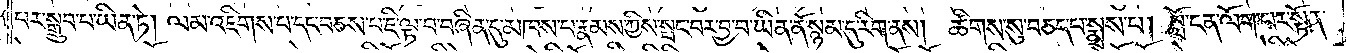པར་སྒྲུབ་པ་ཡིན་ཏེ། ལམ་འཇིགས་པ་དང་བཅས་པ་ཇི་ལྟ་བ་བཞིན་དུ་མཁས་པ་རྣམས་ཀྱིས་སྤང་བར་བྱ་བ་ཡིན་ནོ་སྙམ་དུ་རིག་ནས། ཚིགས་སུ་བཅད་པ་སྨྲས་པ། བློ་ངན་ལོག་པར་སྟོན་
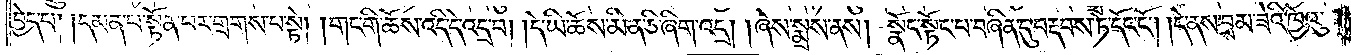བྱེད་པ། །དམན་པ་སྟོན་པར་གྲགས་པ་སྟེ། །གང་གི་ཆོས་འདི་དེ་འདྲ་བ། །དེ་ཡི་ཆོས་མིན་ཅི་ཞིག་འདྲ། །ཞེས་སྨྲས་ནས། སྣོད་སྟོང་བ་བཞིན་དུ་བརྡབས་ཏེ་དོང་ངོ༌། །དེ་ནས་བྲམ་ཟེའི་ཁྱེའུ་
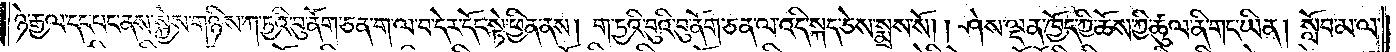ཉེ་རྒྱལ་དང་པང་ནས་སྐྱེས་གཉིས་ཀ་ཏྱའི་བུ་ནོག་ཅན་ག་ལ་བ་དེར་དོང་སྟེ་ཕྱིན་ནས། ག་ཏྱའི་བུའི་བུ་ནོག་ཅན་ལ་འདི་སྐད་ཅེས་སྨྲས་སོ། །ཤེས་ལྡན་ཁྱོད་ཀྱི་ཆོས་ཀྱི་ཚུལ་ནི་གང་ཡིན། སློབ་མ་ལ་
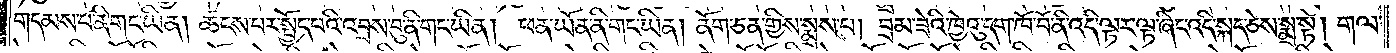གདམས་པ་ནི་གང་ཡིན། ཚངས་པར་སྤྱོད་པའི་འབྲས་བུ་ནི་གང་ཡིན། ཕན་ཡོན་ནི་གང་ཡིན། ནོག་ཅན་གྱིས་སྨྲས་པ། བྲམ་ཟེའི་ཁྱེའུ་དག་ཁོ་བོ་ནི་འདི་ལྟར་ལྟ་ཞིང་འདི་སྐད་ཅེས་སྨྲ་སྟེ། གལ་
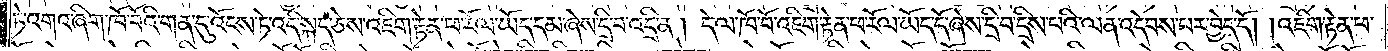ཏེ་འགའ་ཞིག་ཁོ་བོའི་གན་དུ་འོངས་ཏེ་འདི་སྐད་ཅེས་འཇིག་རྟེན་ཕ་རོལ་ཡོད་དམ་ཞེས་དྲི་བ་འདྲི་ན། དེ་ལ་ཁོ་བོ་འཇིག་རྟེན་ཕ་རོལ་ཡོད་དོ་ཞེས་དྲི་བ་དྲིས་པའི་ལན་འདེབས་པར་བྱེད་དོ། །འཇིག་རྟེན་ཕ་
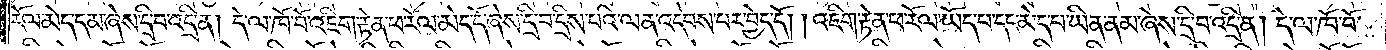རོལ་མེད་དམ་ཞེས་དྲི་བ་འདྲི་ན། དེ་ལ་ཁོ་བོ་འཇིག་རྟེན་ཕ་རོལ་མེད་དོ་ཞེས་དྲི་བ་དྲིས་པའི་ལན་འདེབས་པར་བྱེད་དོ། །འཇིག་རྟེན་ཕ་རོལ་ཡོད་པ་དང་མེད་པ་ཡིན་ནམ་ཞེས་དྲི་བ་འདྲི་ན། དེ་ལ་ཁོ་བོ་
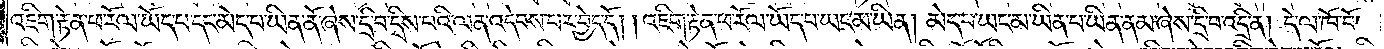འཇིག་རྟེན་ཕ་རོལ་ཡོད་པ་དང་མེད་པ་ཡིན་ནོ་ཞེས་དྲི་བ་དྲིས་པའི་ལན་འདེབས་པར་བྱེད་དོ། །འཇིག་རྟེན་ཕ་རོལ་ཡོད་པ་ཡང་མ་ཡིན། མེད་པ་ཡང་མ་ཡིན་པ་ཡིན་ནམ་ཞེས་དྲི་བ་འདྲི་ན། དེ་ལ་ཁོ་བོ་
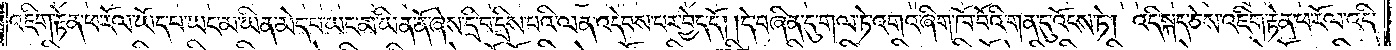འཇིག་རྟེན་ཕ་རོལ་ཡོད་པ་ཡང་མ་ཡིན་མེད་པ་ཡང་མ་ཡིན་ནོ་ཞེས་དྲི་བ་དྲིས་པའི་ལན་འདེབས་པར་བྱེད་དོ། །དེ་བཞིན་དུ་གལ་ཏེ་འགའ་ཞིག་ཁོ་བོའི་གན་དུ་འོངས་ཏེ། འདི་སྐད་ཅེས་འཇིག་རྟེན་ཕ་རོལ་འདི་
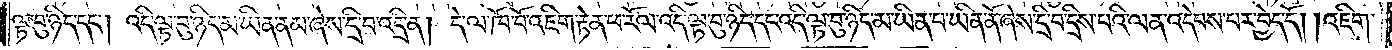ལྟ་བུ་ཉིད་དང༌། འདི་ལྟ་བུ་ཉིད་མ་ཡིན་ནམ་ཞེས་དྲི་བ་འདྲི་ན། དེ་ལ་ཁོ་བོ་འཇིག་རྟེན་ཕ་རོལ་འདི་ལྟ་བུ་ཉིད་དང་འདི་ལྟ་བུ་ཉིད་མ་ཡིན་པ་ཡིན་ནོ་ཞེས་དྲི་བ་དྲིས་པའི་ལན་འདེབས་པར་བྱེད་དོ། །འཇིག་
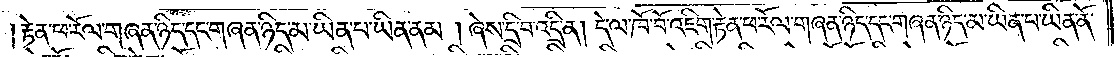རྟེན་ཕ་རོལ་གཞན་ཉིད་དང་གཞན་ཉིད་མ་ཡིན་པ་ཡིན་ནམ་། ཞེས་དྲི་བ་འདྲི་ན། དེ་ལ་ཁོ་བོ་འཇིག་རྟེན་ཕ་རོལ་གཞན་ཉིད་དང་གཞན་ཉིད་མ་ཡིན་པ་ཡིན་ནོ་
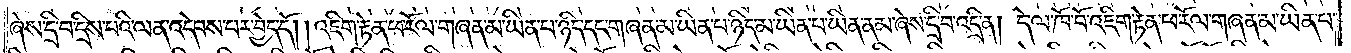ཞེས་དྲི་བ་དྲིས་པའི་ལན་འདེབས་པར་བྱེད་དོ། །འཇིག་རྟེན་ཕ་རོལ་གཞན་མ་ཡིན་པ་ཉིད་དང་གཞན་མ་ཡིན་པ་ཉིད་མ་ཡིན་པ་ཡིན་ནམ་ཞེས་དྲི་བ་འདྲི་ན། དེ་ལ་ཁོ་བོ་འཇིག་རྟེན་ཕ་རོལ་གཞན་མ་ཡིན་པ་
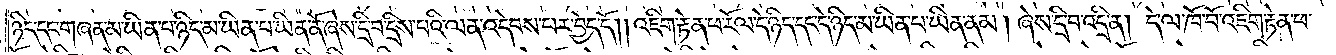ཉིད་དང་གཞན་མ་ཡིན་པ་ཉིད་མ་ཡིན་པ་ཡིན་ནོ་ཞེས་དྲི་བ་དྲིས་པའི་ལན་འདེབས་པར་བྱེད་དོ། །འཇིག་རྟེན་ཕ་རོལ་དེ་ཉིད་དང་དེ་ཉིད་མ་ཡིན་པ་ཡིན་ནམ། ཞེས་དྲི་བ་འདྲི་ན། དེ་ལ་ཁོ་བོ་འཇིག་རྟེན་ཕ་
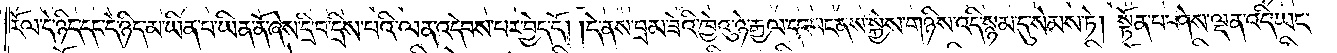རོལ་དེ་ཉིད་དང་དེ་ཉིད་མ་ཡིན་པ་ཡིན་ནོ་ཞེས་དྲི་བ་དྲིས་པའི་ལན་འདེབས་པར་བྱེད་དོ། །དེ་ནས་བྲམ་ཟེའི་ཁྱེའུ་ཉེ་རྒྱལ་དང་པང་ནས་སྐྱེས་གཉིས་འདི་སྙམ་དུ་སེམས་ཏེ། སྟོན་པ་ཤེས་ལྡན་འདི་ཡང་
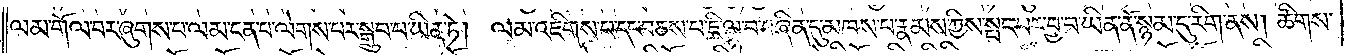ལམ་གོལ་བར་ཞུགས་པ་ལམ་ངན་པ་ལེགས་པར་སྒྲུབ་པ་ཡིན་ཏེ། ལམ་འཇིགས་པ་དང་བཅས་པ་ཇི་ལྟ་བ་བཞིན་དུ་མཁས་པ་རྣམས་ཀྱིས་སྤང་བར་བྱ་བ་ཡིན་ནོ་སྙམ་དུ་རིག་ནས། ཚིགས་
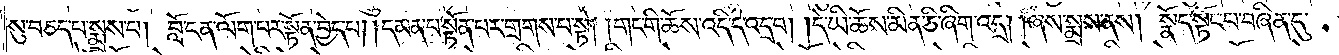སུ་བཅད་པ་སྨྲས་པ། བློ་ངན་ལོག་པར་སྟོན་བྱེད་པ། །དམན་བ་སྟོན་པར་གྲགས་པ་སྟེ། །གང་གི་ཆོས་འདི་དེ་འདྲ་བ། །དེ་ཡི་ཆོས་མིན་ཅི་ཞིག་འདྲ། །ཞེས་སྨྲས་ནས། སྣོད་སྟོང་པ་བཞིན་དུ་
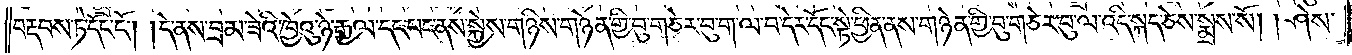བརྡབས་ཏེ་དོང་ངོ༌། །དེ་ནས་བྲམ་ཟེའི་ཁྱེའུ་ཉེ་རྒྱལ་དང་པང་ནས་སྐྱེས་གཉིས་གཉེན་གྱི་བུ་གཅེར་བུ་ག་ལ་བདེ་བ་དོང་སྟེ་ཕྱིན་ནས་གཉེན་གྱི་བུ་གཅེར་བུ་ལ་འདི་སྐད་ཅེས་སྨྲས་སོ། །ཤེས་
